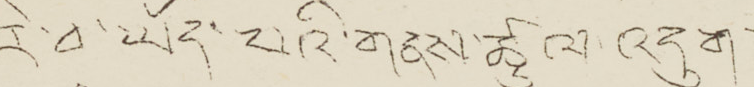རེ་བ་ཡོད་པའི་གནས་ཚུལ་འདུག།།
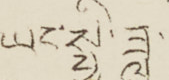ཡང་སྤྱི་ཟླ་
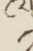༡
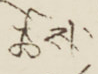ཚེས་
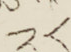༢༨
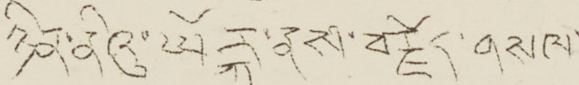ཉིན་ནིའུ་ཡོརྐ་ནས་བརྗོད་གསལ་
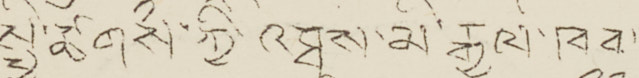སྤྱི་ཚོགས་ཀྱི་འཐུས་མི་རྒྱལ་ཁབ་
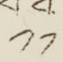༡༡
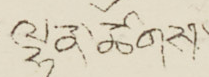ལྷན་མཚོགས་
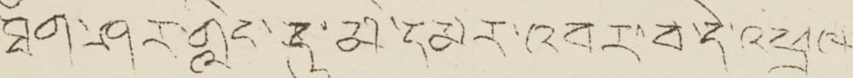ཐོག་ཤར་གླིང་དུ་མི་དམར་འབར་བ་དེ་འཕྲལ་
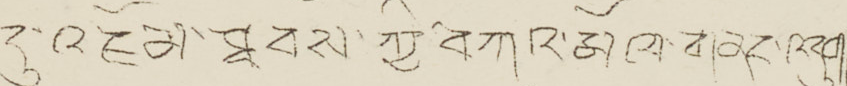དུ་འཇོམ་ཐབས་ཀྱི་བཀའ་མོལ་གནས་འདུག།།
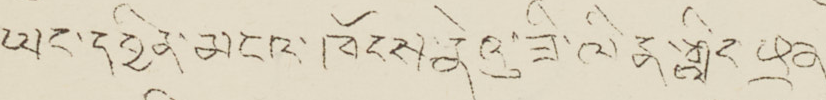ཡང་དབྱིན་མངའ་ཁོངས་ནེའུ་ཟི་ལིན་གླིང་ཕྲན་
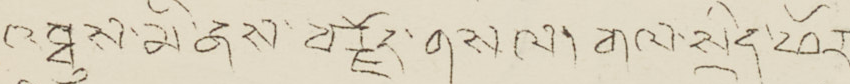འཐུས་མི་ནས་བརྗོད་གསལ་སྲིད་ཕོར་
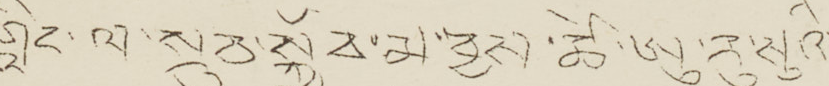གླིང་ལ་སྲུབ་སྐྱོབ་མ་བྱས་ཚེ་ཨུ་རུ་སུའི་
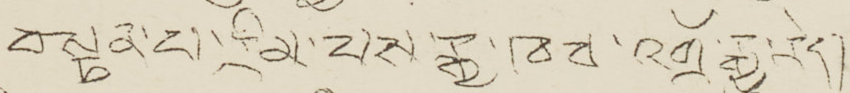བསྟན་པ་རིམ་པས་རྒྱ་ཁབ་འགྲོ་རྒྱུ་རེད།
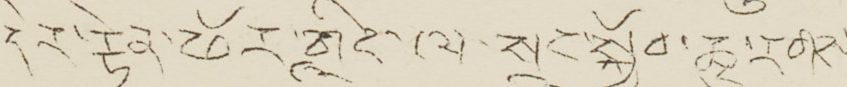དེར་རྟེན་ཕོར་གླིང་ལ་སྲུང་སྐྱོབ་ཆུ་རགས་
